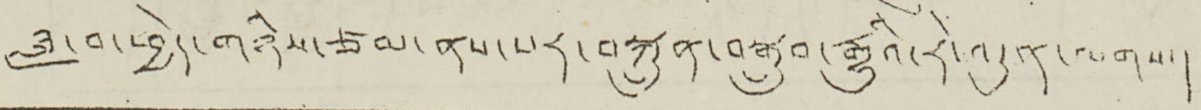ཟླ་བ་ཕྱེད་གཉིས་ཙམ་ནས་པར་བསྐྲུན་བསྒྲུབ་རྒྱུའི་རེ་འདུན་ལགས།
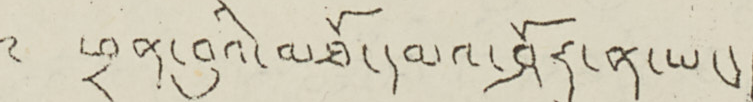༈ ཕྲན་བུའི་མཐོ་དམའ་ཤོར་ན་ཡང་།
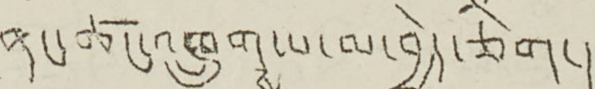ནང་ཚང་འཁྲུགས་པ་མ་བྱེད་ཅིག །
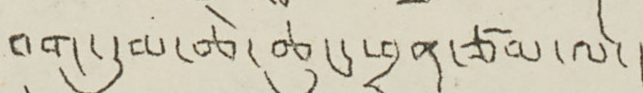བག་དུམ་ཆེ་ཆུང་ཕྲན་ཙམ་ལ།
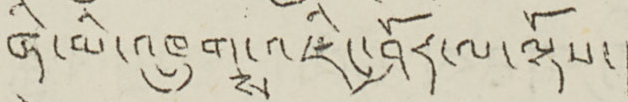ཞི་མི་འཁྲུགས་འཛིང་ཤོར་ལ་ལྟོས།
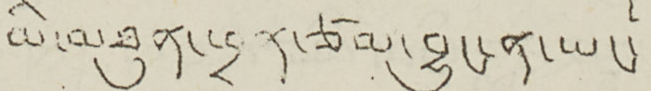མི་མཐུན་ཕྲན་ཙམ་བྱུང་ན་ཡང་།
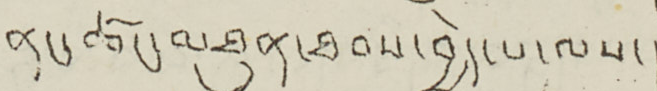ནང་ཚང་མཐུན་ཐབས་བྱེད་པ་ལས།
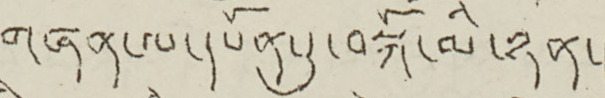གཞན་ལ་དཔོན་དུ་བསྐོ་མི་ཉན།
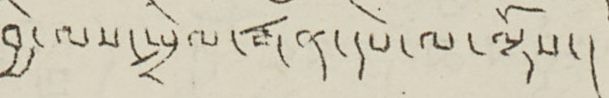བྱི་ལས་སྤྲེལ་རྒན་དཔེ་ལ་ལྟོས།
